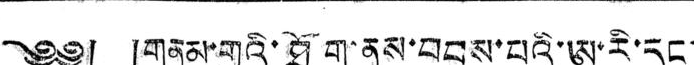༄༅། །གནམ་གྲུའི་ཐོག་ནས་བབས་པའི་ཨ་རི་དང་
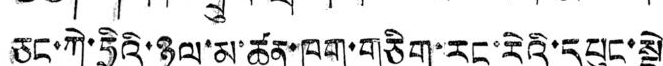ཅང་ཀེ་ཧྲིའི་ཉུལ་མ་ཚན་ཁག་གཅིག་རང་རེའི་དཔུང་སྡེ་
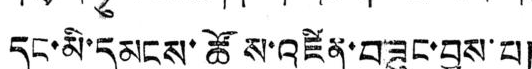དང་མི་དམངས་ཚོས་འཛིན་བཟུང་བྱས་པ།
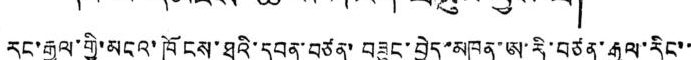རང་རྒྱལ་གྱི་མངའ་ཁོངས་ཐའི་དབན་བཙན་བཟུང་བྱེད་མཁན་ཨ་རི་བཙན་རྒྱལ་རིང་་
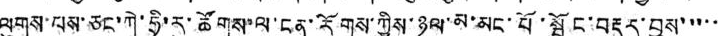ལུགས་པས་ཅང་ཀེ་ཧྲི་རུ་ཚོགས་ལ་ངན་རོགས་ཀྱིས་ཉུལ་མ་མང་པོ་སྦྱོང་བརྡར་བྱས་་་་་
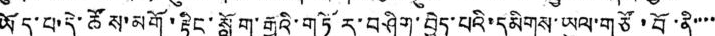ཡོད་པ་དེ་ཚོས་མགོ་རྟིང་སློག་རྒྱུའི་གཏོར་བཤེག་བྱེད་པའི་དམིགས་ཡུལ་གཙོ་བོ་ནི་་་་
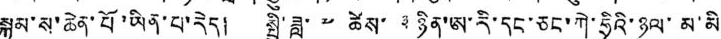སྐམ་ས་ཆེན་པོ་ཡིན་པ་རེད། སྤྱི་ཟླ་ ༧ ཚེས་ ༣ ཉིན་ཨ་རི་དང་ཅང་ཀེ་ཧྲིའི་ཉུལ་མ་མི
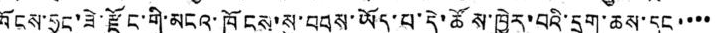ཁོངས་ཧྲང་ཟེ་རྫོང་གི་མངའ་ཁོངས་སུ་བབས་ཡོད་པ་དེ་ཚོས་ཁྱེར་བའི་དྲག་ཆས་དང་་་་
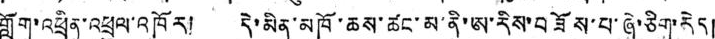གློག་འཕྲིན་འཕྲུལ་འཁོར། དེ་མིན་མཁོ་ཆས་ཚང་མ་ནི་ཨ་རིས་བཟོས་པ་ཞེ་ཅིག་རེད།
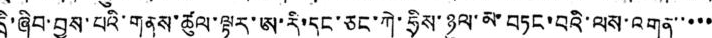དྲི་ཞིབ་བྱས་པའི་གནས་ཚུལ་ལྟར་ཨ་རི་དང་ཅང་ཀེ་ཧྲིས་ཉུལ་མ་བཏང་བའི་ལས་འགན་་་་་
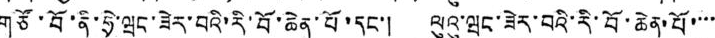གཙོ་བོ་ནི་ཧྲེ་ཝང་ཟེར་བའི་རི་བོ་ཆེན་པོ་དང་། ལུའུ་ཝང་ཟེར་བའི་རི་བོ་ཆེན་པོ་་་་
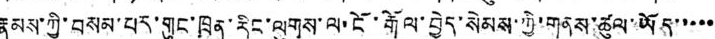རྣམས་ཀྱི་བསམ་པར་གུང་ཁྲན་རིང་ལུགས་ལ་ངོ་རྒོལ་བྱེད་སེམས་ཀྱི་གནས་ཚུལ་ཡོད་་་་་
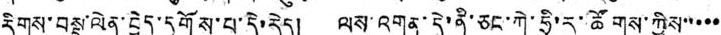རིགས་བསྡུ་ལེན་བྱེད་དགོས་པ་དེ་རེད། ལས་འགན་དེ་ནི་ཅང་ཀེ་ཧྲི་རུ་ཚོགས་ཀྱིས་་་་་
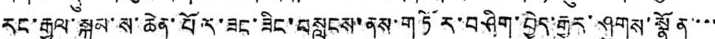རང་རྒྱལ་སྐམ་ས་ཆེན་པོར་ཟང་ཟིང་བསླངས་ནས་གཏོར་བཤིག་བྱེད་རྒྱུར་ཤུགས་སྣོན་་་་
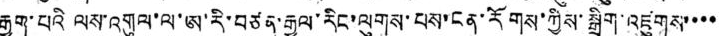རྒྱག་པའི ལས་འགུལ་ལ་ཨ་རི་བཙན་རྒྱལ་རིང་ལུགས་པས་ངན་རོགས་ཀྱིས་སྒྲིག་འཛུགས་་་་
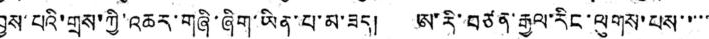བྱས་པའི་གྲས་ཀྱི་འཆར་གཞི་ཞིག་ཡིན་པ་མ་ཟད། ཨ་རི་བཙན་རྒྱལ་རིང་ལུགས་པས་་་་་
